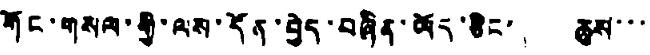གོང་གསལ་གྱི་ལས་དོན་བྱེད་བཞིན་ཡོད་ཅིང་། ཆུས་་་
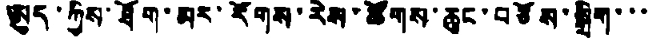ཨུད་ཀྱིས་ཐོག་མར་རོགས་རེས་ཚོགས་ཆུང་བཅོས་སྒྲིག་་་
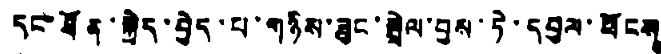དང་ཐོན་སྐྱེད་བྱེད་པ་གཉིས་ཟུང་སྦྲེལ་བྱས་ཏེ་དབུལ་ཕོངས
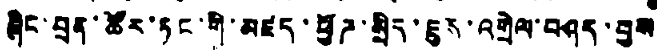ཞིང་བྲན་ཚོར་ཏང་གི་མཛད་ཕྱོཌ་སྲིད་ཇུས་འགྲེལ་བཤད་བྱས
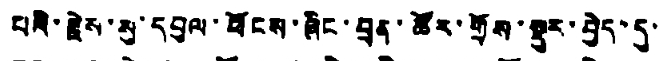པའི་རྗེས་སུ་དབུལ་ཕོངས་ཞིང་བྲན་ཚོར་གྲོས་སྡུར་བྱེད་དུ་
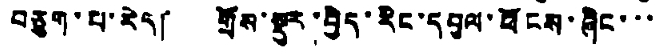བཅུག་པ་རེད། གྲོས་སྡུར་བྱེད་རིང་དབུལ་ཕོངས་ཞིང་་་
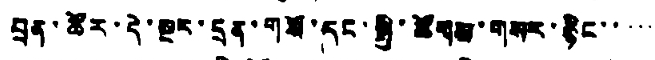བྲན་ཚོར་དེ་སྔར་དྲན་གསོ་དང་སྤྱི་ཚོགས་གསར་རྙིང་་་་
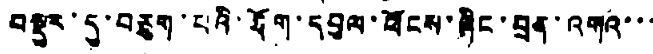བསྡུར་དུ་བཅུག་པའི་ཐོག་དབུལ་ཕོངས་ཞིང་བྲན་འགའ་་་
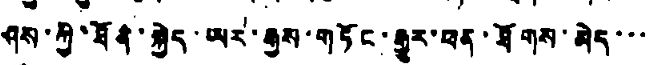ཤས་ཀྱི་ཐོན་སྐྱེད་ཡར་རྒྱས་གཏོང་རྒྱུར་ཕན་ཐོགས་མེད་་་
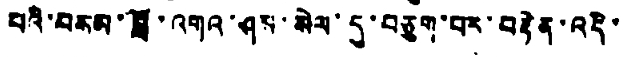པའི་བསམ་བློ་འགའ་ཤས་སེལ་དུ་བཅུག་པར་བརྟེན་འདི་
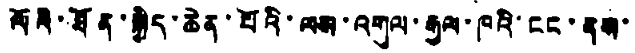ལོའི་ཐོན་སྐྱེད་ཆེན་པོའི་ལས་འགུལ་རྒྱལ་ཁའི་ངང་ནས་
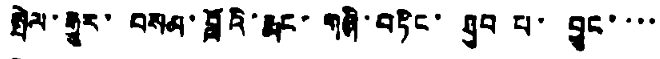སྤེལ་རྒྱུར་བསམ་བློའི་རྨང་གཞི་བཏིང་ཐུབ པ་ བྱུང་་་་
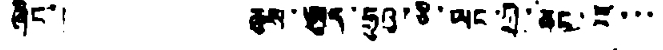ཞིང་། ཆུས་ཨུད་ཧྲུའུ་ཅི་ཡང་ཀྲི་ཆང་ངོ་་་
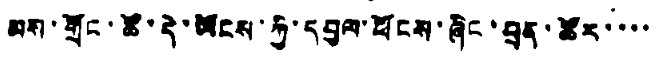མས་གྲོང་ཚོ་དེ་ཡོངས་ཀྱི་དབུལ་ཕོངས་ཞིང་བྲན་ཚོར་་་་
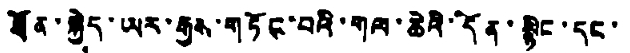ཐོན་སྐྱེད་ཡར་རྒྱས་གཏོང་བའི་གལ་ཆེའི་དོན་སྙིང་དང་
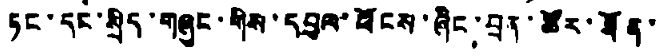ཏང་དང་སྲིད་གཞུང་གིས་དབུལ་ཕོངས་ཞིང་བྲན་ཚོར་ཐོན་
